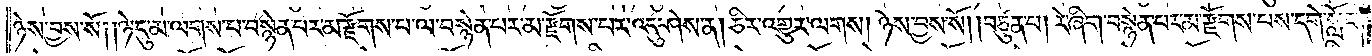ཉེས་བྱས་སོ། །ཉེ་དུ་མ་ལགས་པ་བསྙེན་པར་མ་རྫོགས་པ་ལ་བསྙེན་པར་མ་རྫོགས་པར་འདུ་ཤེས་ན། ཅིར་འགྱུར་ལགས། ཉེས་བྱས་སོ། །བཙུན་པ། རེ་ཞིག་བསྙེན་པར་མ་རྫོགས་པས་དགེ་སློང་
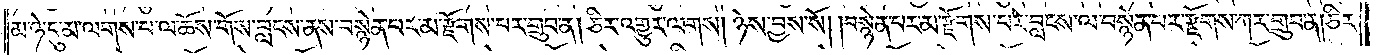མ་ཉེ་དུ་མ་ལགས་པ་ལ་ཆོས་གོས་བླངས་ནས་བསྙེན་པར་མ་རྫོགས་པར་གྲུབ་ན། ཅིར་འགྱུར་ལགས། ཉེས་བྱས་སོ། །བསྙེན་པར་མ་རྫོགས་པར་བླངས་ལ་བསྙེན་པར་རྫོགས་ཀར་གྲུབ་ན། ཅིར་
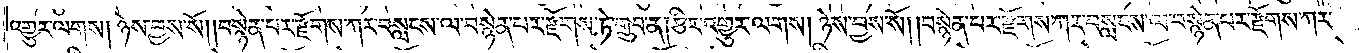འགྱུར་ལགས། ཉེས་བྱས་སོ། །བསྙེན་པར་རྫོགས་ཀར་བསླངས་ལ་བསྙེན་པར་རྫོགས་ཏེ་གྲུབ་ན། ཅིར་འགྱུར་ལགས། ཉེས་བྱས་སོ། །བསྙེན་པར་རྫོགས་ཀར་བསླངས་ལ་བསྙེན་པར་རྫོགས་ཀར་
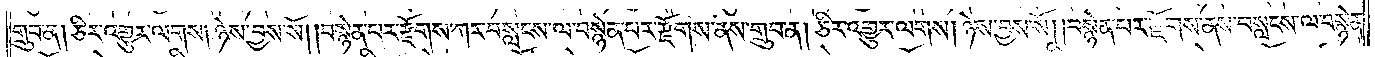གྲུབ་ན། ཅིར་འགྱུར་ལགས། ཉེས་བྱས་སོ། །བསྙེན་པར་རྫོགས་ཀར་བསླངས་ལ་བསྙེན་པར་རྫོགས་ནས་གྲུབ་ན། ཅིར་འགྱུར་ལགས། ཉེས་བྱས་སོ། །བསྙེན་པར་རྫོགས་ནས་བསླངས་ལ་བསྙེན་
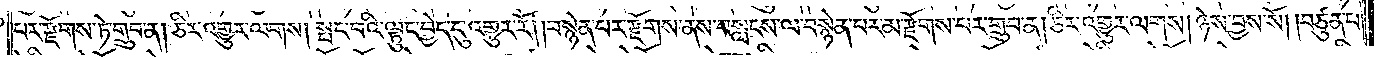པར་རྫོགས་ཏེ་གྲུབ་ན། ཅིར་འགྱུར་ལགས། སྤང་བའི་ལྟུང་བྱེད་དུ་འགྱུར་རོ། །བསྙེན་པར་རྫོགས་ནས་བསླངས་ལ་བསྙེན་པར་མ་རྫོགས་པར་གྲུབ་ན། ཅིར་འགྱུར་ལགས། ཉེས་བྱས་སོ། །བཙུན་པ་
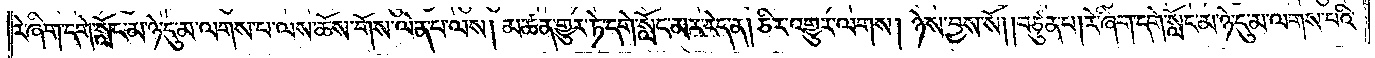རེ་ཞིག་དགེ་སློང་མ་ཉེ་དུ་མ་ལགས་པ་ལས་ཆོས་གོས་ལེན་པ་ལས། མཚན་གྱུར་ཏེ་དགེ་སློང་མར་རེད་ན། ཅིར་འགྱུར་ལགས། ཉེས་བྱས་སོ། །བཙུན་པ། རེ་ཞིག་དགེ་སློང་མ་ཉེ་དུ་མ་ལགས་པའི་
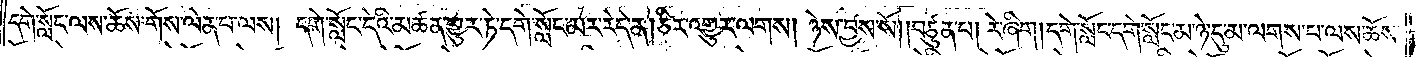དགེ་སློང་ལས་ཆོས་གོས་ལེན་པ་ལས། དགེ་སློང་དེའི་མཚན་གྱུར་ཏེ་དགེ་སློང་མར་རེད་ན། ཅིར་འགྱུར་ལགས། ཉེས་བྱས་སོ། །བཙུན་པ། རེ་ཞིག །དགེ་སློང་དགེ་སློང་མ་ཉེ་དུ་མ་ལགས་པ་ལས་ཆོས་
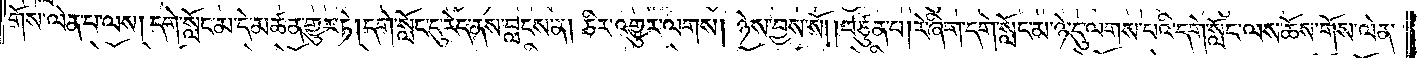གོས་ལེན་པ་ལས། དགེ་སློང་མ་དེ་མཚན་གྱུར་ཏེ། དགེ་སློང་དུ་རེད་ནས་བླངས་ན། ཅིར་འགྱུར་ལགས། ཉེས་བྱས་སོ། །བཙུན་པ། རེ་ཞིག་དགེ་སློང་མ་ཉེ་དུ་ལགས་པའི་དགེ་སློང་ལས་ཆོས་གོས་ལེན་
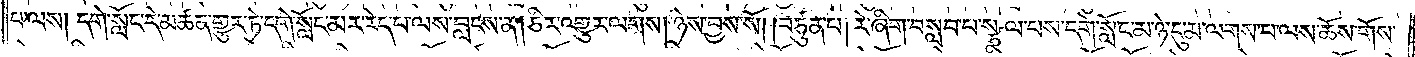པ་ལས། དགེ་སློང་དེ་མཚན་གྱུར་ཏེ་དགེ་སློང་མར་རེད་པ་ལས་བླངས་ན། ཅིར་འགྱུར་ལགས། ཉེས་བྱས་སོ། །བཙུན་པ། རེ་ཞིག་བསླབ་པ་སྩལ་པས་དགེ་སློང་མ་ཉེ་དུ་མ་ལགས་པ་ལས་ཆོས་གོས་
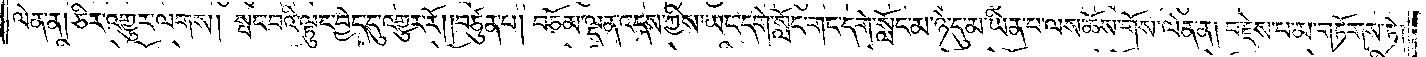ལེན་ན། ཅིར་འགྱུར་ལགས། སྤང་བའི་ལྟུང་བྱེད་དུ་འགྱུར་རོ། །བཙུན་པ། བཅོམ་ལྡན་འདས་ཀྱིས་ཡང་དགེ་སློང་གང་དགེ་སློང་མ་ཉེ་དུ་མ་ཡིན་པ་ལས་ཆོས་གོས་ལེན་ན། བརྗེས་པ་མ་གཏོགས་ཏེ།
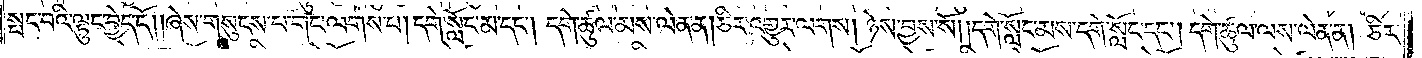སྤང་བའི་ལྟུང་བྱེད་དོ། །ཞེས་གསུངས་པ་གང་ལགས་པ། དགེ་སློང་མ་དང༌། དགེ་ཚུལ་མས་ལེན་ན། ཅིར་འགྱུར་ལགས། ཉེས་བྱས་སོ། །དགེ་སློང་མས་དགེ་སློང་དང༌། དགེ་ཚུལ་ལས་ལེན་ན། ཅིར་
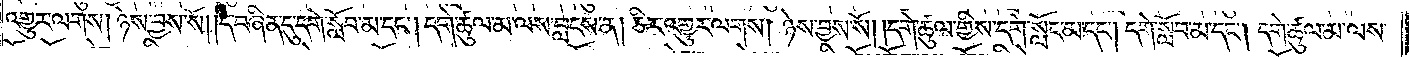འགྱུར་ལགས། ཉེས་བྱས་སོ། །དེ་བཞིན་དུ་དགེ་སློབ་མ་དང༌། དགེ་ཚུལ་མ་ལས་བླངས་ན། ཅིར་འགྱུར་ལགས། ཉེས་བྱས་སོ། །དགེ་ཚུལ་གྱིས་དགེ་སློང་མ་དང༌། དགེ་སློང་མ་དང༌། དགེ་ཚུལ་མ་ལས་
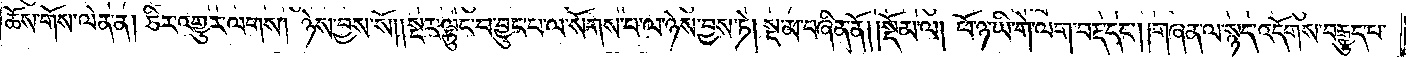ཆོས་གོས་ལེན་ན། ཅིར་འགྱུར་ལགས། ཉེས་བྱས་སོ། །སྔར་ལྟུང་བ་བྱུང་བ་ལ་སོགས་པ་ལ་ཉེས་བྱས་ཏེ། སྔ་མ་བཞིན་ནོ།    །སྡོམ་ལ། ཕོ་ཉ་ཡི་གེ་ལག་བརྡ་དང༌། །གཞན་ལ་སྙད་འདོགས་བརྒྱུད་པ་
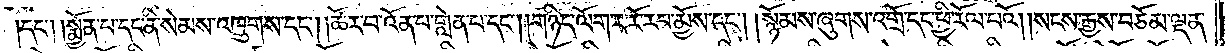།དང༌། །སྨྱོན་པ་དང་ནི་སེམས་འཁྲུགས་དང༌། །ཚོར་བ་འོན་པ་གླེན་པ་དང༌། །གཉིད་ལོག་ར་རོ་རབ་མྱོས་དང༌། །སྙོམས་ཞུགས་འགྲོ་དང་ཕྱི་རོལ་པའོ། །སངས་རྒྱས་བཅོམ་ལྡན་
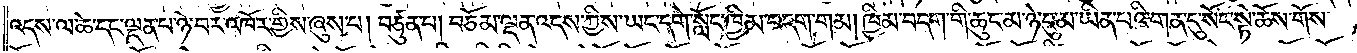འདས་ལ་ཚེ་དང་ལྡན་པ་ཉེ་བར་འཁོར་གྱིས་ཞུས་པ། བཙུན་པ། བཅོམ་ལྡན་འདས་ཀྱིས་ཡང་དགེ་སློང་ཁྱིམ་བདག་གམ། ཁྱིམ་བདག་གི་ཆུང་མ་ཉེ་དུ་མ་ཡིན་པའི་གན་དུ་སོང་སྟེ་ཆོས་གོས་
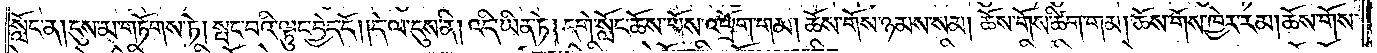སློང་ན། དུས་མ་གཏོགས་ཏེ། སྤང་བའི་ལྟུང་བྱེད་དོ། །དེ་ལ་དུས་ནི། འདི་ཡིན་ཏེ། དགེ་སློང་ཆོས་གོས་འཕྲོག་གམ། ཆོས་གོས་ཉམས་སམ། ཆོས་གོས་ཚིག་གམ། ཆོས་གོས་ཁྱེར་རམ། ཆོས་གོས་
